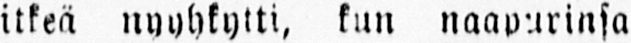itkeä nyyhkytti, kun naaparinsa
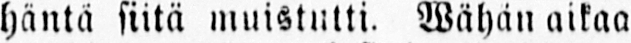häntä siitä muistutti. Wähän aikaa
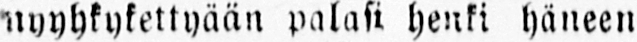nyyhkykettyään palasi henki häneen
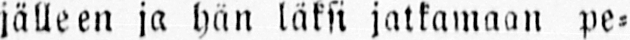jälleen ja hän läksi jatkamaan pe-
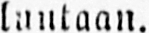luutaan.
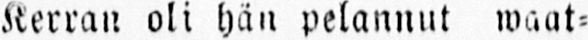Kerran oli hän pelannut waat-
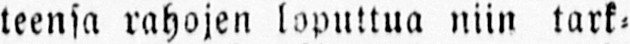teensa rahojen loputtua niin tark-
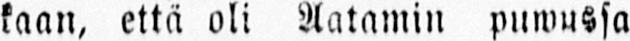kaan, että oli Aatamin puwussa
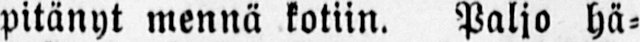pitänyt mennä kotiin. Paljo hä-
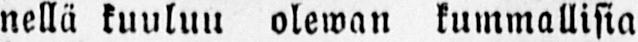nellä kuuluu olewan kummallisia
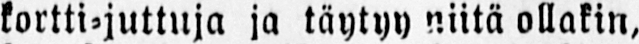kortti-juttuja ja täytyy niitä ollakin,
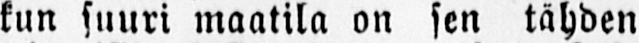kun suuri maatila on sen tähden
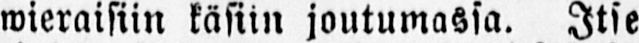wieraisiin käsiin joutumassa. Itse
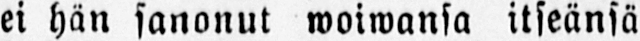ei hän sanonut woiwansa itseänsä
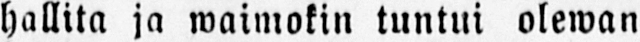hallita ja waimokin tuntui olewan
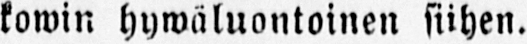kowin hywäluontoinen siihen.
